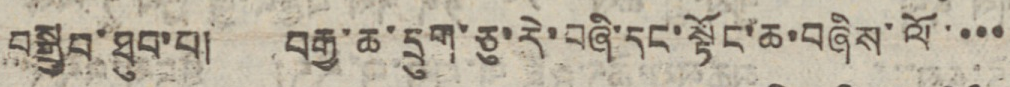བསྒྲུབ་ཐུབ་པ། བརྒྱ་ཆ་དྲུག་ཅུ་རེ་བཞི་དང་སྟོང་ཆ་བཞིས་ལོ་་་་
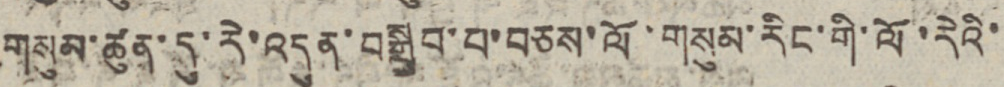གསུམ་ཚུན་དུ་རེ་འདུན་བསྒྲུབ་པ་བཅས་ལོ་གསུམ་རིང་གི་ལོ་རེའི་
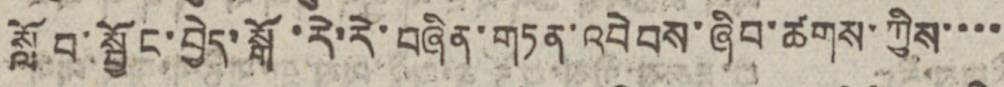སློབ་སྦྱོང་བྱེད་སྒོ་རེ་རེ་བཞིན་གཏན་འབེབས་ཞིབ་ཚགས་ཀྱིས་་་་
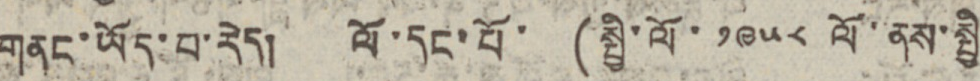གནང་ཡོད་པ་རེད། ལོ་དང་པོ་ (སྤྱི་ལོ་ ༡༩༥༨ ལོ་ནས་སྤྱི་
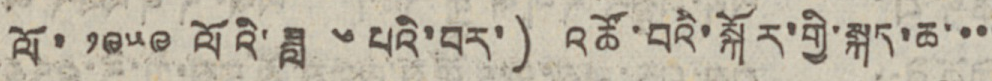ལོ་ ༡༩༥༩ ལོའི་ཟླ ༦ པའི་བར་) འཚོ་བའི་སྐོར་གྱི་སྐད་ཆ་་་་
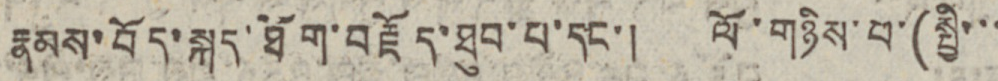རྣམས་བོད་སྐད་ཐོག་བརྗོད་ཐུབ་པ་དང་། ལོ་གཉིས་པ་(སྤྱི་་་
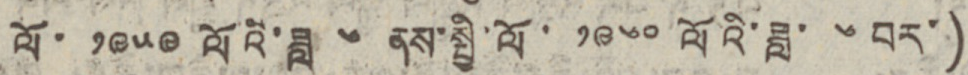ལོ་ ༡༩༥༩ ལོའི་ཟླ ༦ ནས་སྤྱི་ལོ་ ༡༩༦༠ ལོའི་ཟླ་ ༦ བར་)
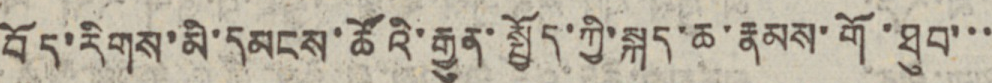བོད་རིགས་མི་དམངས་ཚོའི་རྒྱུན་སྤྱོད་ཀྱི་སྐད་ཆ་རྣམས་གོ་ཐུབ་་་
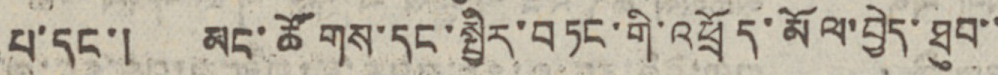པ་དང་། མང་ཚོགས་དང་སྤྱིར་བཏང་གི་འཕྲོད་མོལ་བྱེད་ཐུབ་་
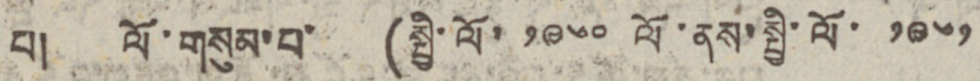པ། ལོ་གསུམ་པ་ (སྤྱི་ལོ་ ༡༩༦༠ ལོ་ནས་སྤྱི་ལོ་ ༡༩༦༡
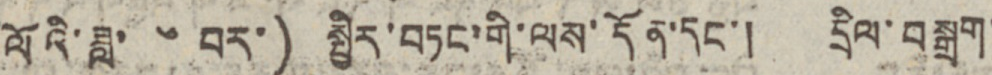ལོའི་ཟླ་ ༦ བར་) སྤྱིར་བཏང་གི་ལས་དོན་དང་། དྲིལ་བསྒྲག་
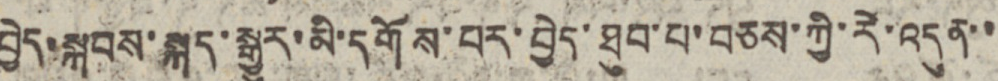བྱེད་སྐབས་སྐད་སྒྱུར་མི་དགོས་པར་བྱེད་ཐུབ་པ་བཅས་ཀྱི་རེ་འདུན་་
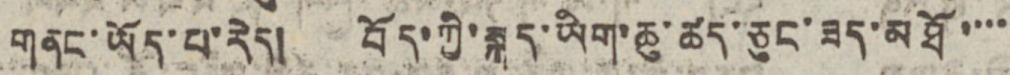གནང་ཡོད་པ་རེད། བོད་ཀྱི་སྐད་ཡིག་ཆུ་ཚད་ཅུང་ཟད་མཐོ་་་་
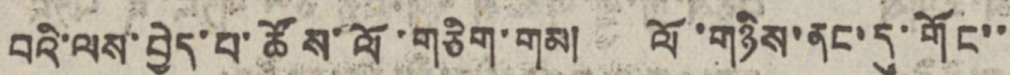བའི་ལས་བྱེད་པ་ཚོས་ལོ་གཅིག་གམ། ལོ་གཉིས་ནང་དུ་གོང་་
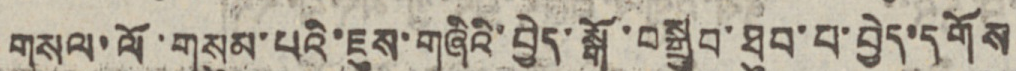གསལ་ལོ་གསུམ་པའི་ཇུས་གཞིའི་བྱེད་སྒོ་བསྒྲུབ་ཐུབ་པ་བྱེད་དགོས
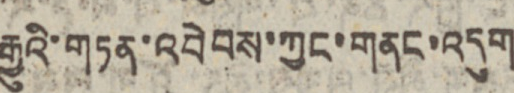རྒྱུའི་གཏན་འབེབས་ཀྱང་གནང་འདུག
